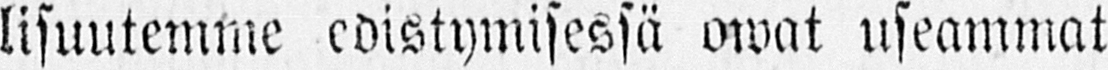lisuutemme edistymisessä owat useammat
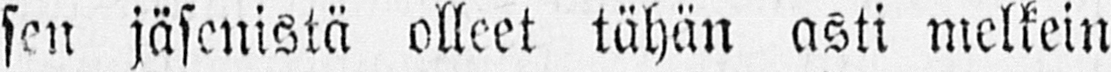sen jäsenistä olleet tähän asti melkein
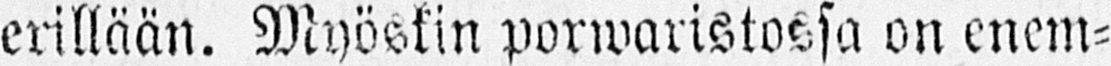erillään. Myöskin porwaristossa on enem-
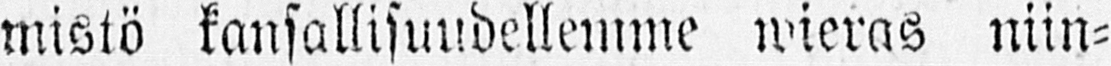mistö kansallisuudellemme wieras niin-
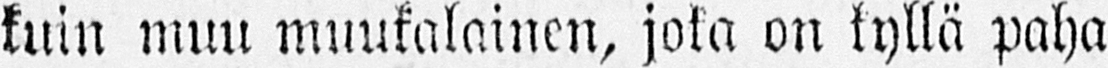kuin muu muukalainen, joka on kyllä paha
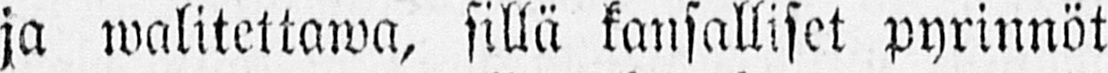ja walitettawa, sillä kansalliset pyrinnöt
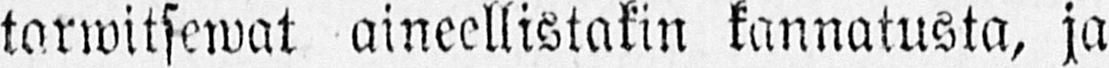tarwitsewat aineellistakin kannatusta, ja
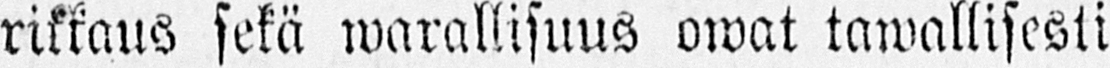rikkaus sekä warallisuus owat tawallisesti
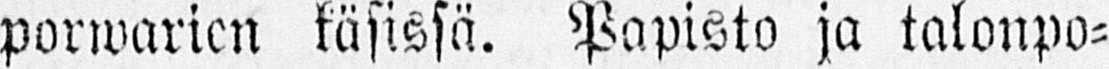porwarien käsissä. Papisto ja talonpo-
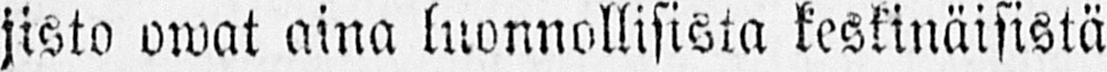jista owat aina luonnollisista keskinäisistä
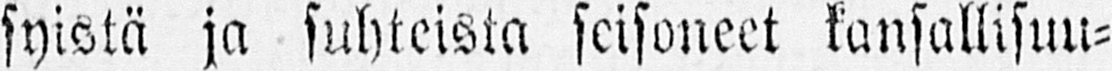syistä ja suhteista seisoneet kansallisuu-
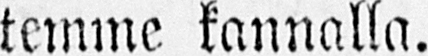temme kannalla.
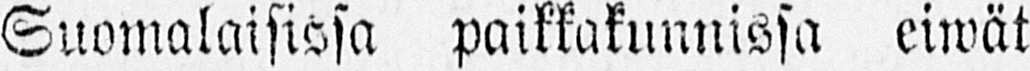Suomalaisissa paikkakunnissa eiwät
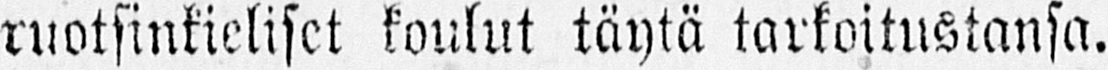ruotsinkieliset koulut täytä tarkoitustansa.
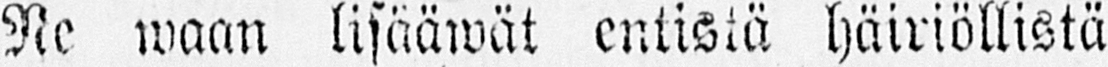Ne waan lisääwät entistä häiriöllistä
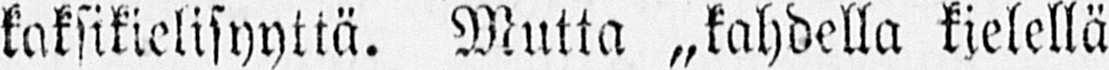kaksikielisyyttä. Mutta „kahdella kielellä
